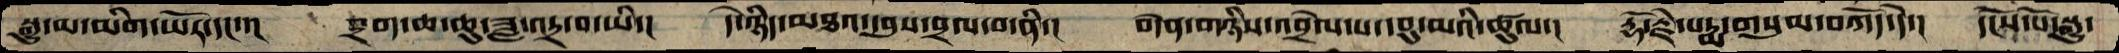སྒྱུ་མ་མིག་ཡོར་དང་་།  བྲག་ཆ་ཆུ་ཟླ་འདྲ་བ་ཡི་།  དེ་ཉིད་མཐའ་དབུས་བྲལ་བ་ནི་།  བདེན་གཉིས་འབྲེལ་པ་དབུ་མའི་ཚུལ་།  རྡོ་རྗེ་པདྨ་གསུམ་བཀོད་དེ་།  དངོས་པོ་སྒྱུ་
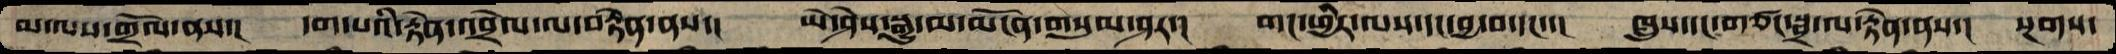མ་ལས་གྲོལ་ནས་།  དག་པའི་རྟེན་འབྲེལ་ལ་བརྟེན་ནས་།  ཡེ་ཤེས་སྒྱུ་མ་མངོན་གསུམ་ཤར་།  གང་ཕྱིར་ལས་དང་བྱ་བ་དང་་།  ཁྲུས་དང་གཙང་སྦྲ་ལ་རྟེན་ནས་།  སྔགས་
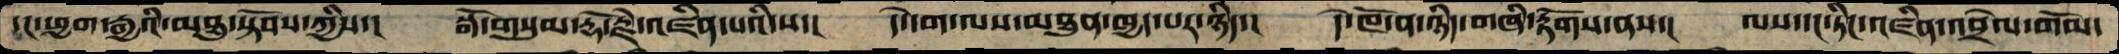དང་ཕྱག་རྒྱའི་མཐུ་སྟོབས་ཀྱིས་།  སྒོ་གསུམ་རྡོ་རྗེ་འཛིན་པའི་ས་།  དེ་དག་ལས་མཐུན་ཁྱད་པར་ཉིད་།  དེ་ཁོ་ན་ཉིད་གཞི་རྟོགས་ནས་།  ལས་དང་ཏིང་འཛིན་འབྲེལ་གོམ་
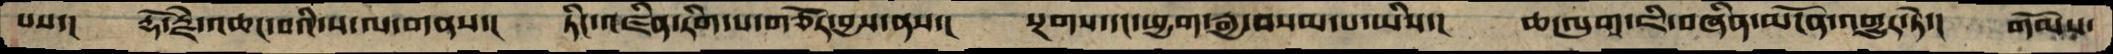པས་།  རྡོ་རྗེ་འཆང་བའི་ས་ལ་གནས་།  ཏིང་འཛིན་རིག་པ་གཙོར་བྱས་ནས་།  སྔགས་དང་ཕྱག་རྒྱ་བསམ་པ་ཡིས་།  ཆ་ལུག་ཇི་བཞིན་མངོན་འགྱུར་ཏེ་།  གོམས་
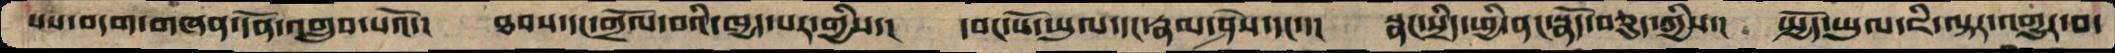པས་བདག་གཞན་དོན་འགྲུབ་པའོ་།  ཐབས་དང་གྲོལ་བའི་ཁྱད་པར་གྱིས་།  དབང་པོ་ཡུལ་དང་རྣམ་ཤེས་དང་་།  སྣང་སྲིད་ཕྱི་ནང་སྣོད་བཅུད་གྱིས་།  སྤྱོད་ཡུལ་ཇི་ལྟར་འགྱུར་བ་
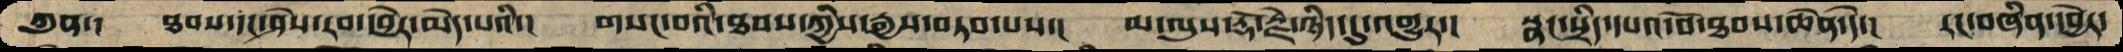ཀུན་།  ཐབས་དང་ཤེས་རབ་དབྱེར་མེད་པའི་།  གསང་བའི་ཐབས་ཀྱིས་རྒྱས་བཏབ་པས་།  མ་ལུས་རྡོ་རྗེ་ཉིད་དུ་འགྱུར་།  སྣང་སྲིད་དཔའ་བོ་ཐབས་ཆེན་དེ་།  རང་བཞིན་དབྱེར་
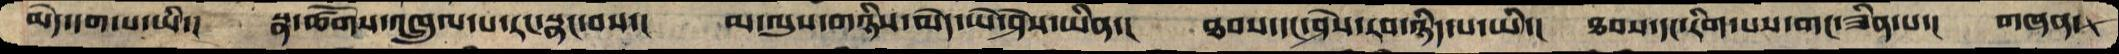མེད་དག་པ་ཡི་།  སྣ་ཚོགས་འཁྲུལ་པ་རང་སྣང་བས་།  མ་ལུས་གཉིས་མེད་ཡེ་ཤེས་ཡིན་།  ཐབས་དང་ཤེས་རབ་ཉིད་པ་ཡི་།  ཐབས་དང་རིག་པས་གང་ཟིན་པ་།  གཞན་
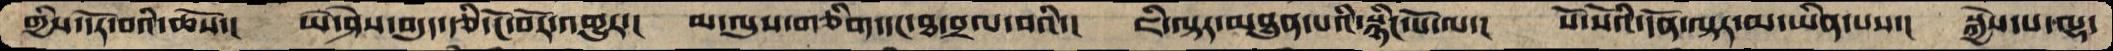གྱིས་དོར་བའི་ཆོས་།  ཡེ་ཤེས་བདུད་རྩི་ངོ་བོར་འགྱུར་།  མ་ལུས་གཅིག་དང་ཐ་བྲལ་བའི་།  ཇི་ལྟར་མཐུན་པའི་སྙིང་པོ་ལ་།  སོ་སོའི་དོན་ལྟར་མ་ཡིན་པས་།  སྐྱེས་པ་ལྷ་
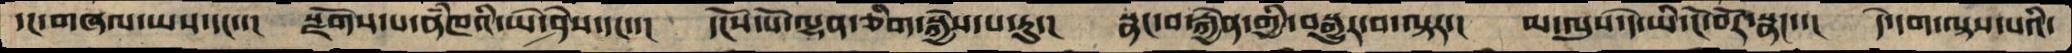དང་གཞལ་ཡས་དང་་།  སྫོགས་པ་ནཾཁའི་ཡེ་ཤེས་དང་་།  དངོས་པོ་ལྷན་ཅིག་སྐྱེས་པ་རུ་།  སྣང་བ་རྐྱེན་གྱི་བསྒྱུར་་བ་ལྟར་།  མ་ལུས་དེ་ཡི་ངོ་བོར་སྣང་།  དེ་དག་ལྟས་པའི་
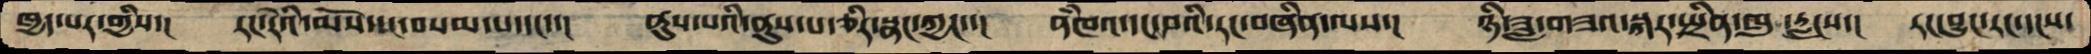ཁྱད་པར་གྱིས་།  རང་རེའི་མོས་དང་བསམ་པ་དང་།  ནུས་པའི་ནུས་པ་ཅིར་སྣང་ཀྱང་་།  ནཾཁའ་དང་བའི་རང་བཞིན་ལས་།   ཉི་ཟླ་གཟའ་སྐར་སྤྲིན་ཁུ་རླངས་།  རང་བྱུང་རང་དངས་
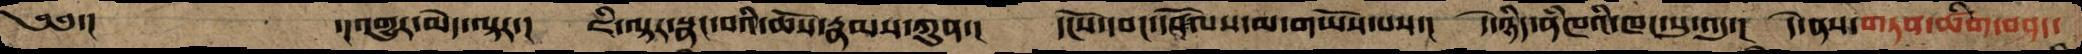༄༅་།   ་།འགྱུར་མེད་ལྟར་།  ཇི་ལྟར་སྣང་བའི་ཆོས་རྣམས་ཀུན་།  དངོས་དབང་དོན་ལས་མ་གཡོས་པས་།  དེ་ཉིད་ནཾཁའི་ཁང་སུ་འདུ་།  དེ་ནས་གཏན་ཚིག་བཤད་
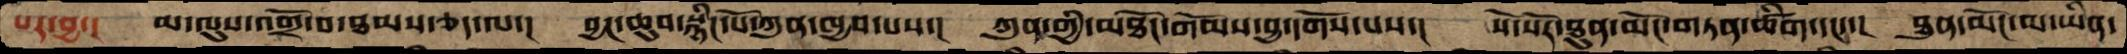པར་བྱ་།  མ་ལུས་འགྲོ་བ་ཐམས་ཅད་ལ་།  བྱང་ཆུབ་སྙིང་པོ་ཀུན་ཁྱབ་པས་།  ཀུན་གྱི་མཐོང་གོམས་བྱ་དགོས་པས་།  སོ་སོར་ཐུན་མོང་གཏན་ཚིག་དང་་།  ཐུན་མོང་མ་ཡིན་
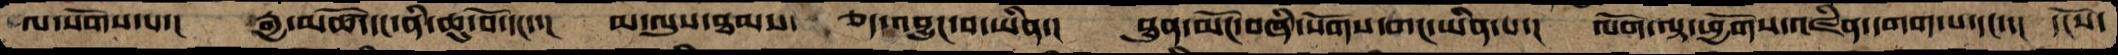ལ་སོགས་པ་།  རྒྱ་མཚོ་དང་ནི་ཆུ་བོ་དང་་།  མ་ལུས་ཐམས་    ཅད་འབྱུང་བ་ཡིན་།  ཐུན་མོང་བཞི་སོགས་གང་ཡིན་པ་།  ལོག་ལྟ་ཕྱོགས་འཛིན་དགག་པ་དང་་།  དངོས་
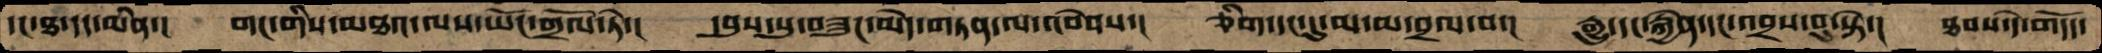དང་ཐ་དད་མིན་།  གང་གིས་མཐའ་ལས་ཡོང་གྲོལ་ཏེ་།  དབུས་སུ་བཟུང་མེད་གཏན་ལ་འབེབས་།  ཅིག་དང་དུ་མ་མ་བྲལ་བ་།  རྒྱུ་དང་རྐྱེན་དང་འབྲས་བུ་སྟེ་།  ཐབས་དེ་གདོད་
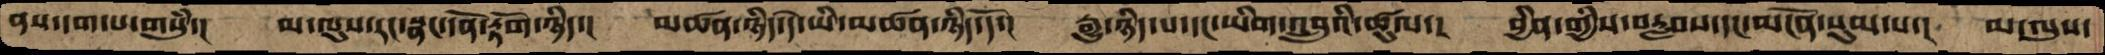ནས་དག་པ་གསུཾ་།  མ་ལུས་རང་སྣང་དོན་རྟོག་ཉིད་།  མཚན་ཉིད་དེ་ཡིི་མཚན་ཉིད་དོ་།  རྒྱུ་ཉིད་པ་དང་ཡིག་འབྲུའི་ཚུལ་།  བྱིན་གྱིས་བརླབས་དང་མངོན་སུམ་པ་།  མ་ལུས་
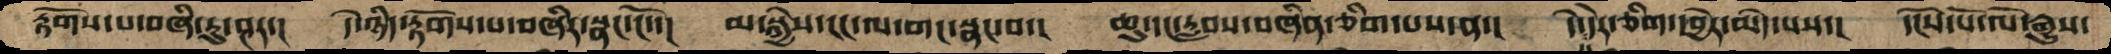རྟོགས་པ་བཞི་རུ་ཤར་།  དེ་ཉིད་རྟོགས་པ་བཞིར་སྣང་ངོ་་།  མ་སྐྱེས་ངང་ལ་གང་སྣང་བ་།  ཆུ་དང་རླབས་བཞིན་ཅིག་པས་ན་།  དེ་དང་དེར་ཅིག་དབྱེད་མེད་པས་།  དངོས་པོ་ལོ་རྒྱུས་
